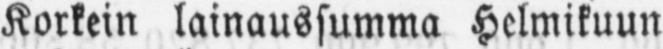Korkein lainaussumma Helmikuun
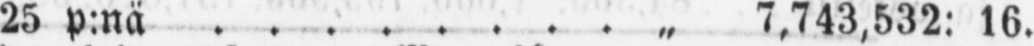25 p:nä „ 7,743,532: 16.
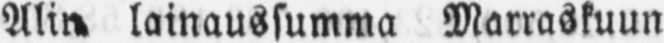Alin lainaussumma Marraskuun
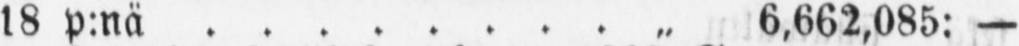18 p:nä „ 6,662,085: —
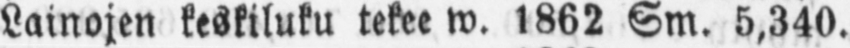Lainojen keskiluku tekee w. 1862 Sm. 5,340.
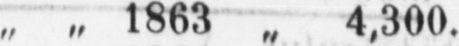„ „ „ „ 1863 „ 4,300.
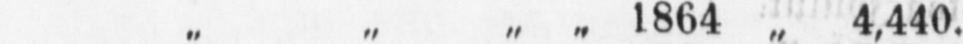„ „ „ „ 1864 „ 4,440.
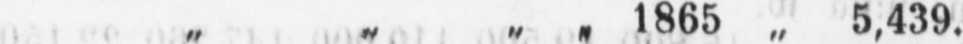„ „ „ „ 1865 „ 5,439.
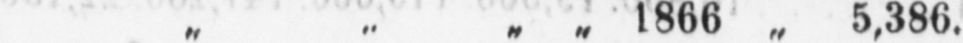„ „ „ „ 1866 „ 5,386.
